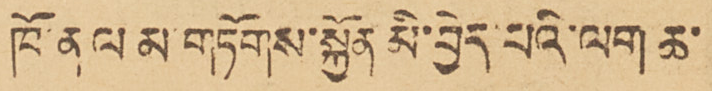ཁོ་ནལ མ་གཏོགས་སྐྱོན མི་བྱེད་པའི་ལག ཆ་
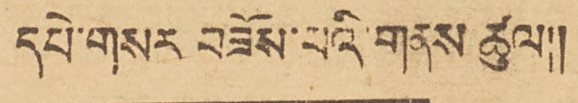དཔེ་གསར བཟོས་པའི་གནས ཚུལ།།
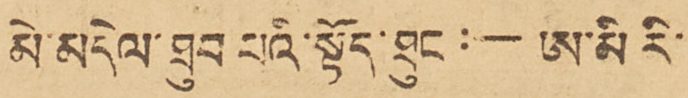མེ་མདེལ་ཐུབ པའི་སྟོད་ཐུང་:— ཨ་མི རི་
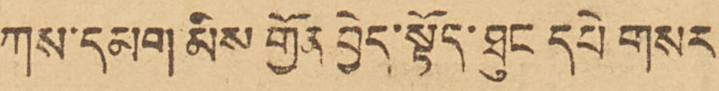ཀས་དམག མིས གྱོན བྱེད་སྟོད་ཐུང དཔེ གསར
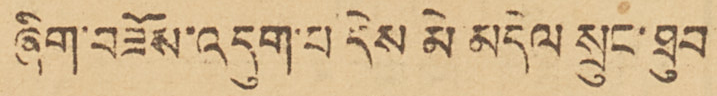ཞིག་བཟོས་འདུག་པ དེས མེ མདེལ སྲུང་ཐུབ
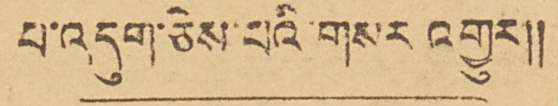པ་འདུག་ཅེས་པའི་གསར འགྱུར།།
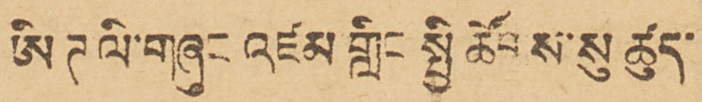ཨིཊ ལི་གཞུང འཛམ གླིང སྤྱི ཚོགས་སུ ཚུད་
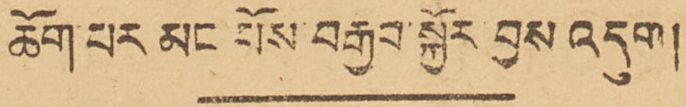ཆོག་པར མང པོས་བརྒྱབ་སྐྱོར བྱས འདུག།།
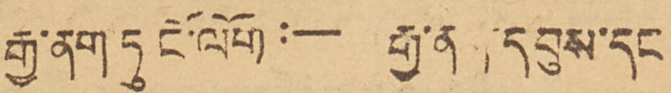རྒྱ་ནག ཏུ ངེ་ལོག་— རྒྱ་ནག་དབུས་དང
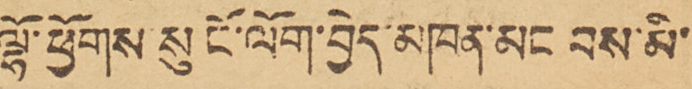ལྷོ་ཕྱོགས་སུ ངོ་ལོག་བྱེད་མཁན་མང བས་མི་
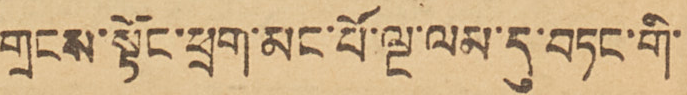གྲངས་སྟོང་ཕྲག་མང་པོ་ལྔ་ལམ་དུ་བཏང་གི་
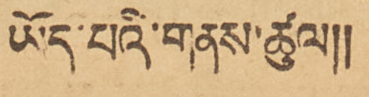ཡོད་པའི་གནས་ཚུལ།།
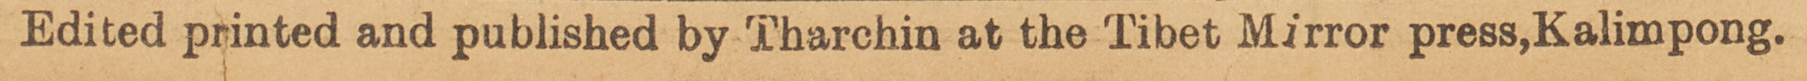Edited printed and published by Tharchin at the Tibet Mirror press, Kalimpong.
